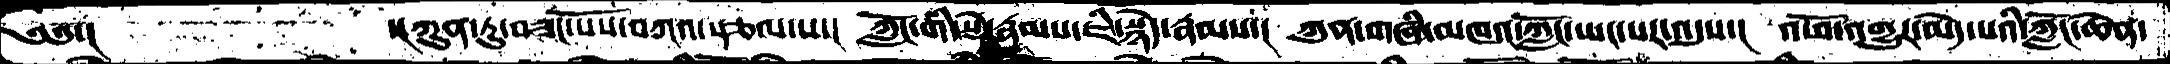༄༅་།          ་།ཀུན་ཏུ་བཟང་པོས་བཀའ་སྩལ་པ་།  ཀློང་གི་སྡེ་རྣམས་ཇི་སྙེད་རྣམས་།  ཀུན་གཞི་མཁའ་ཀློང་ཡང་པར་འདུས་།  འཕོ་འགྱུར་མེད་པའི་ཀློང་ཆེན་
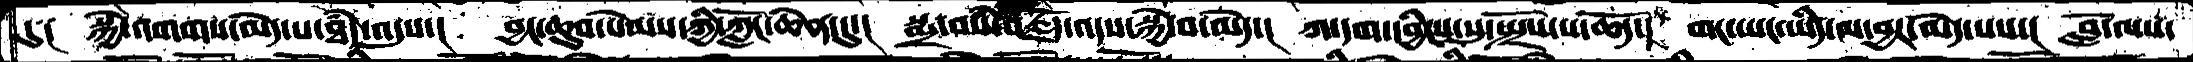དུ།   སྐྱེ་འགགས་མེད་པ་ཐཾད་འདུས་།  བྱང་ཆུབ་སེམས་ཀྱི་ཀློང་ཆེན་དུ་།  སྨྲ་བསཾ་བརྗོད་འདས་སྐྱེ་བ་མེད་།  ཀ་དག་དབྱིངས་སུ་སྤྲོས་པ་ཆོད་།  གང་ཡང་ཡིད་ལ་བྱར་མེད་པས་།  བློ་ལས་
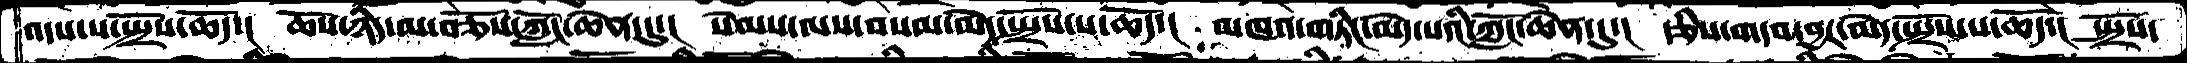འདས་པ་སྤྲོས་ཆོད་།  ཆོས་ཉིད་མ་བཅོས་ཀློང་ཆེན་དུ་།  སེམས་ལས་བསམ་མེད་སྤྲོས་པ་ཆོད་།  མཁའ་གཏིང་མེད་པའི་ཀློང་ཆེན་དུ་།  རྩིས་གདབ་བྱར་མེད་སྤྲོས་པ་ཆོད་།  སྤྲོས་
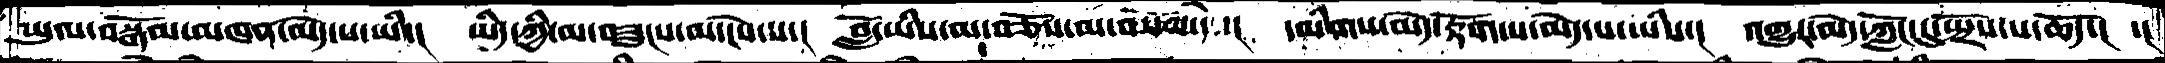ཡུལ་བསྒོམ་མཁན་མེད་པ་ཡི་།  ཡིད་ཀྱི་མ་བཟུངས་མ་ངེས་པ་།  བློ་ཡིས་མ་བཅོས་མ་བསལ་དེ་།  དམིགས་མེད་རྟོག་པ་མེད་པ་ཡིས་།  འགྱུར་མེད་ཀློང་དུ་སྤྲོས་པ་ཆོད་།  ་།
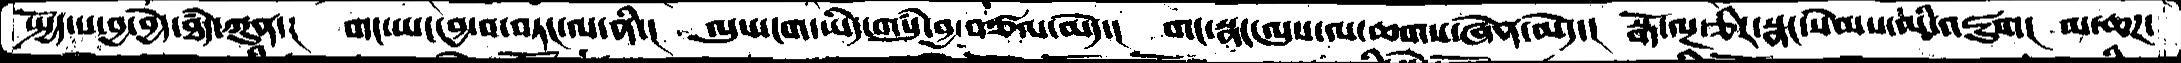སྤྱོད་པ་བྱ་བྱེད་ཐཾད་ཀུན་།  གང་ཡང་བྱ་བ་བཏང་ལ་ནི་།  ལུས་ངག་ཡིད་གསུཾ་བྱ་བཙལ་མེད་།  གང་སྣང་ལུས་ལ་ཆགས་ཞེན་མེད་།  སྒོ་ལྔ་ཅིར་སྣང་སེམས་མི་འཇུག།  མ་ཆཌ་
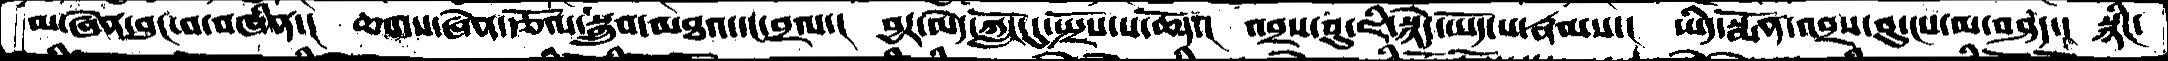མ་ཞེན་བུང་བ་བཞིན་།  ཆགས་ཞེན་རྩོལ་སྒྲུབ་མཐའ་དང་བྲལ་།  བྱར་མེད་ཀློང་དུ་སྤྲོས་པ་ཆོད་།  འབྲས་བུ་ཇི་སྙེད་ཡོད་པ་རྣམས་།  ཡིད་སྨོན་འབྲས་བུ་ངས་མ་བཤད་།  སྙིང་
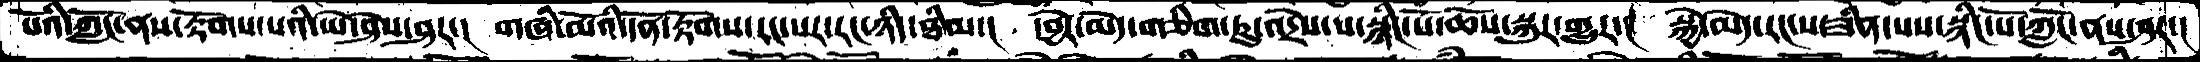པོའི་ཀློང་ནས་རྟོགས་པའི་ཡེ་ཤེས་ཤར་།  གཞི་མོའི་དོན་རྟོགས་རང་སར་རང་ཉིད་ཐིམ་།  དབྱེར་མེད་གཅིག་ཏུ་འདྲེས་པ་སྙིང་པོ་ཆོས་སྐུར་གྱུར་།  སྐྱེ་མེད་རང་ས་ཟིན་པས་སྙིང་པོ་ཀློང་ནས་ཤར་
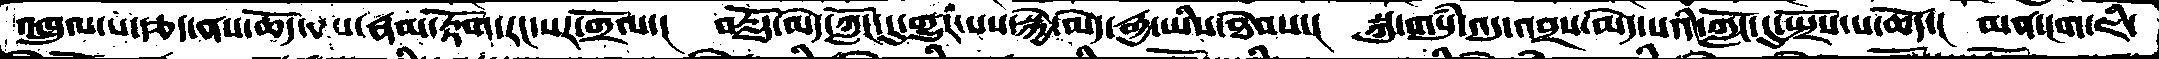འཁྲུལ་པ་རྩད་ནས་ཆོད་པས་རྣམ་རྟོག་རང་སར་གྲོལ་།  བརྗོད་མེད་ཀློང་དུ་གྱུར་པས་སྐྱེ་མེད་རྒྱ་ཡིས་ཐེབས་།  སྐུ་གསུཾ་འདུ་འབྲས་མེད་པའི་ཀློང་དུ་སྤྲོས་པ་ཆོད་།  མན་ངག་ཇི་
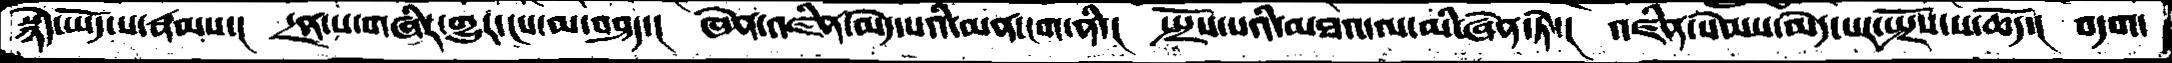སྙེད་ཡོད་པ་རྣམས་།  དྲན་པ་གཞིར་གྱུར་ངས་མ་བཤད་།  ཞེན་འཛིན་མེད་པའི་མན་ངག་ནི་།  སྤྲོས་པའི་མཐའ་ལ་མི་ཞེན་ཏེ་།  འཛིན་སེམས་མེད་པར་སྤྲོས་པ་ཆོད་།  བདག་
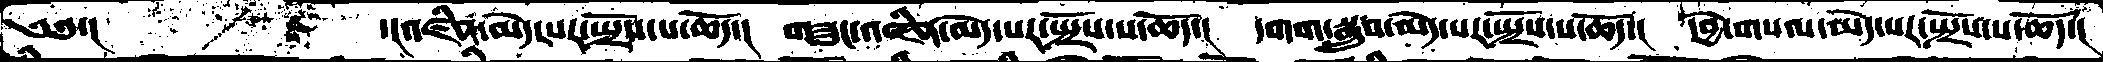༄༅་།       ་།འཛིན་མེད་པར་སྤྲོས་པ་ཆོད་།  གཟུང་འཛིན་མེད་པར་སྤྲོས་པ་ཆོད་།  དགའ་སྒྲུབ་མེད་པར་སྤྲོས་པ་ཆོད་།  དབྱེ་གསལ་མེད་པར་སྤྲོས་པ་ཆོད་།
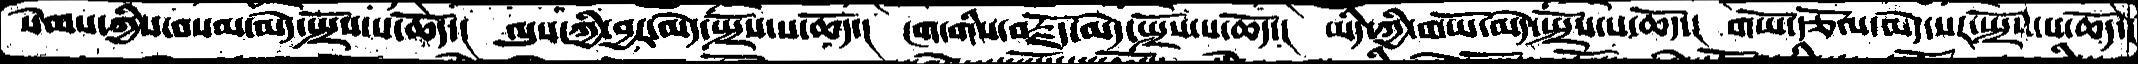སེམས་གྱིས་བསམ་མེད་སྤྲོས་པ་ཆོད་།  ལུས་ཀྱི་བྱར་མེད་སྤྲོས་པ་ཆོད་།  ངག་གིས་བརྗོད་མེད་སྤྲོས་པ་ཆོད་།  ཡིད་ཀྱི་གཡོ་མེད་སྤྲོས་པ་ཆོད་།  གཡོ་རྩོལ་མེད་པར་སྤྲོས་པ་ཆོད་།
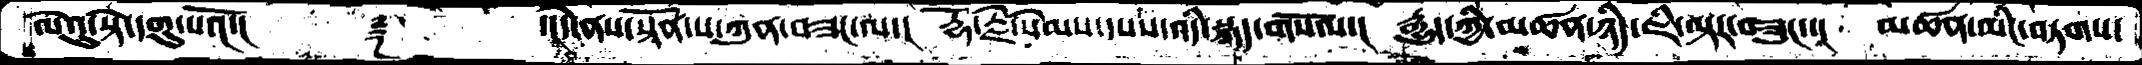ལེའུ་སྟེ་དགུ་པའོ་།    ࿑    ་།དེ་ནས་སྟོན་པ་ཀུན་བཟང་ལ་།  རྡོ་རྗེ་སེམས་དསས་འདི་སྐད་གསོལ་།  རྒྱུད་ཀྱི་མཚན་ཉིད་ཇི་ལྟར་བཟུང་་།  མཚན་མིང་བཏགས་
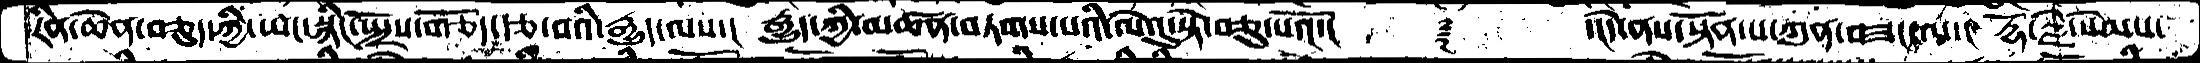རིན་ཆེན་བཅུད་ཀྱི་ཡང་སྙིང་སྤྲོས་གཅོད་རྩ་བའི་རྒྱུད་ལས་།  རྒྱུད་ཀྱི་མཚན་བཏགས་པའི་ལེའུ་སྟེ་བཅུ་པའོ་།    ࿑   ་།དེ་ནས་སྟོན་པ་ཀུན་བཟང་ལ་།  རྡོ་རྗེ་སེམས་
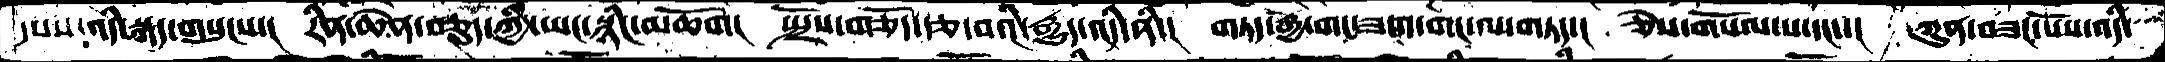དསས་འདི་སྐད་གསུངས་།  རིན་ཆེན་བཅུད་ཀྱི་ཡང་སྙིང་མཆོག།  སྤྲོས་གཅོད་རྩ་བའི་རྒྱུད་འདི་ནི་།  གཏད་རྒྱ་གང་ཟག་གང་ལ་གཏད་།  ཅེས་གསོལ་པ་དང་་།  ཀུན་བཟང་པོས་འདི་
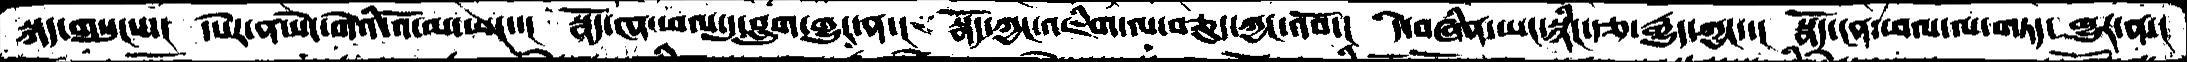སྐད་གསུངས་།  དཔེར་ན་སེང་གེའི་འོ་མ་ཡང་་།  སྣོད་ཁ་ཕལ་དུ་བླུག་གྱུར་ན་།  སྣོད་ཀྱང་འཇིག་ལ་བཅུད་ཀྱང་འབོ་།  དེ་བཞིན་ཡང་སྙིང་རྩ་རྒྱུད་ཀྱང་།  སྣོད་ངན་ཕལ་ལ་གཏད་ གྱུར་ན་།
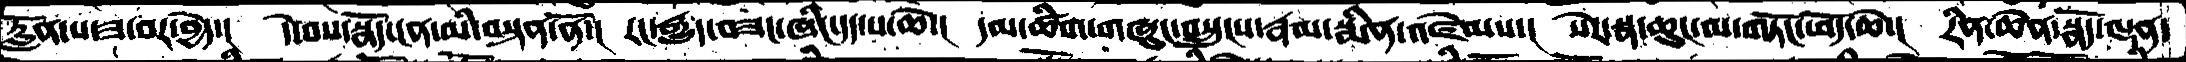རློན་པ་ཟ་བར་བྱེད་།  དེ་བས་སྣོད་ངན་མི་བསྟན་ནོ་།  རང་རྒྱུད་བཟང་ཞིང་དད་པ་ཆེ་།   དམ་ཚིག་གཞུང་བསྲུངས་རྣམ་སྨིན་འཛེམས་།  སེར་སྣ་ཆུང་ལ་གཏོང་ཕོད་ཆེ་།   རིན་ཆེན་སྣོད་ལྡན་
